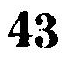43
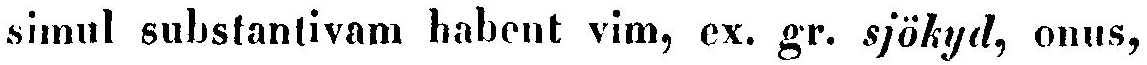simul substantivam habent vim, ex. gr. sjökyd, onus,
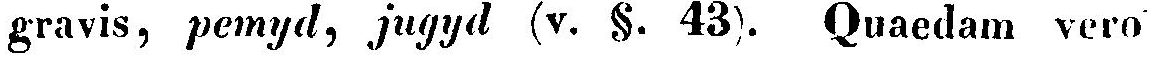gravis, pemyd, jugyd (v. §. 43). Quaedam vero
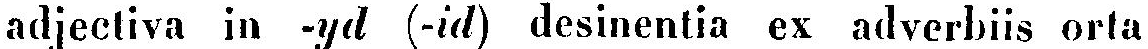adjectiva in -yd (-id) desinentia ex adverbiis orta
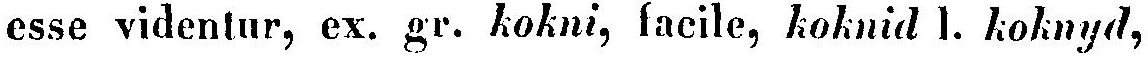esse videntur, ex. gr. kokni, facile, kohnid l. koknyd,
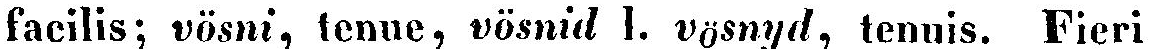facilis; vösni, tenue, vösnid l. vösnyd, tenuis. Fieri
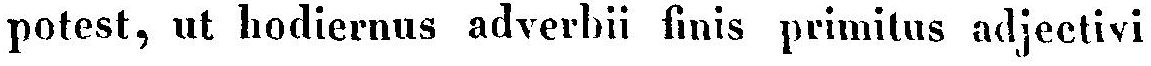potest, ut hodiernus adverbii finis primitus adjectivi
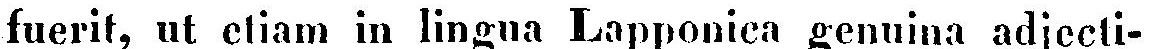fuerit, ut etiam in lingua Lapponica genuina adjecti-
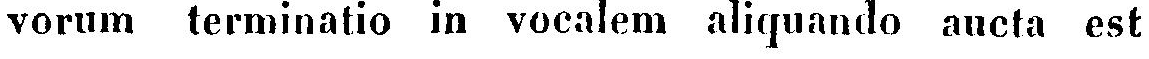vorum terminatio in vocalem aliquando aucta est
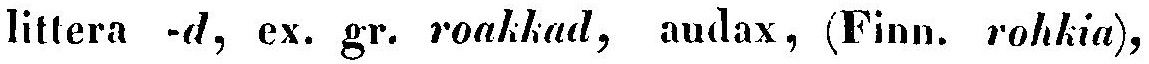littera -d, ex. gr. roakkad, audax, (Finn. rohkia),
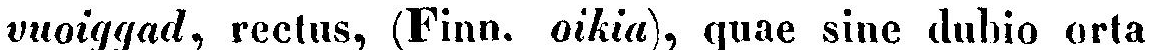vuoiggad, rectus, (Finn. oikia), quae sine dubio orta
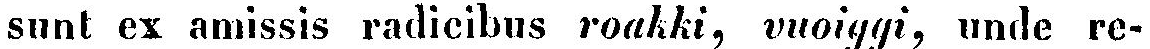sunt ex amissis radicibus roakki, vuoiggi, unde re-
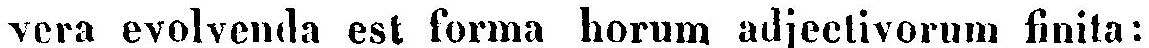vera evolvenda est forma horum adjectivorum finita:
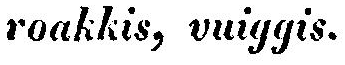roakkis, vuiggis.
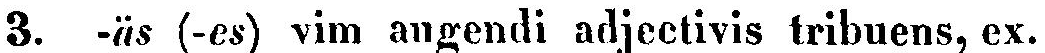3. -äs (-es) vim angendi adjectivis tribuens, ex.
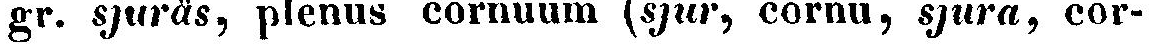gr. sjuräs, plenus cornuum (sjur, cornu, sjura, cor-
